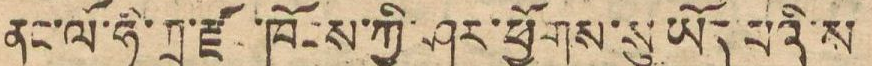ནང་ལོ་ཧི་ཀྲ་ཛོང་ཁོངས་ཀྱི་ཤར་ཕྱོགས་སུ་ཡོད་ཨཔའི་ས
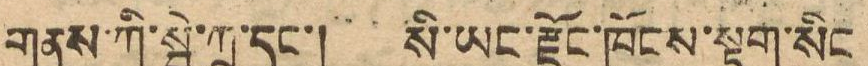གནས་ཀི་སྦེ་ཀྲུ་དང་། སི་ཡང་རྫོང་ཁོངས་སྟག་སིང
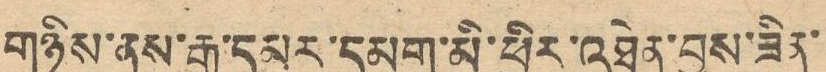གཉིས་ནས་རྒྱ་དམར་དམག་མི་ཕྱིར་འཐེན་བྱས་ཟེན་
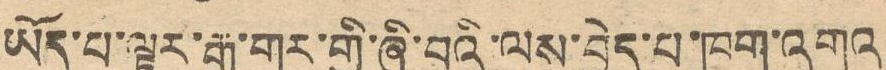ཡོད་པ་ལྟར་རྒྱ་གར་གྱི་ཞི་བའི་ལས་བྱེད་པ་ཁག་འགའ་
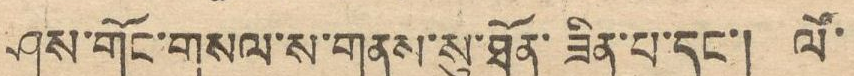ཤས་གོང་གསལ་ས་གནས་སུ་ཐོན་ཟིན་པ་དང་། ལོ་
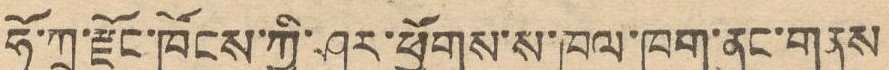ཧོ་ཀྲ་རྫོང་ཁོངས་ཀྱི་ཤར་ཕྱོགས་ས་ཁུལ་ཁག་ནང་གནས
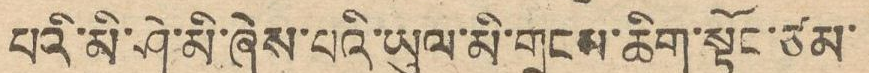པའི་མི་ཤི་མི་ཞེས་པའི་ཡུལ་མི་གྲངས་ཆིག་སྟོང་ཙམ་
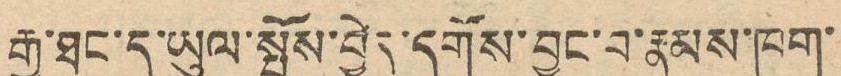རྒྱ་ཐང་དུ་ཡུལ་སྤོས་བྱེད་དགོས་བྱུང་བ་རྣམས་ཁག་
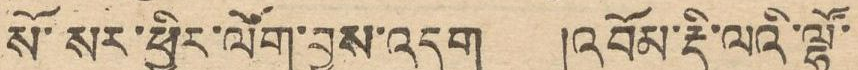སོ་སོར་ཕྱིར་ལོག་བྱས་འདུག །འབོམ་རྡི་ལའི་ལྷོ་
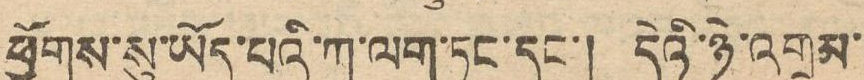ཕྱོགས་སུ་ཡོད་པའི་ཀ་ལག་ཏང་དང་། དེའི་ཉི་འགྲམ་
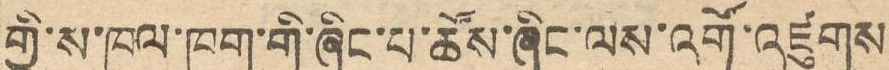གྱི་ས་ཁུལ་ཁག་གི་ཞི་པ་ཚོས་ཞིང་ལས་འགོ་འཛུགས
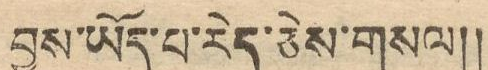བྱས་ཡོད་པ་རེད་ཅེས་གསལ།།
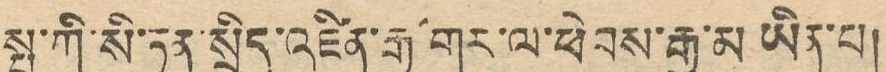སྤ་ཀི་སི་ཏན་སྲིད་རྒྱ་གར་ལ་ཕེབས་རྒྱུ་མ་ཡིན་པ།
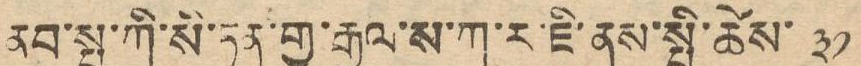ནུབ་སྤ་ཀི་སི་ཏན་གྱི་རྒྱལ་ས་ཀ་ར་ཇི་ནས་སྤྱི་ཚེས་ ༣༡
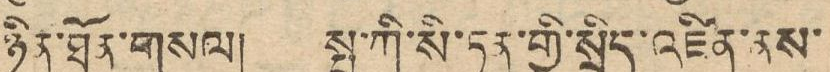ཉིན་ཐོན་གསལ། སྤ་ཀི་སི་ཏན་གྱི་སྲིད་འཛིན་ནས་
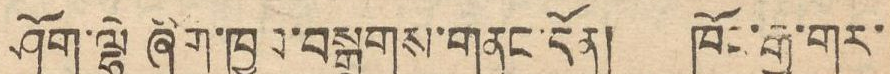ཤོག་ལྟེ ཞིག་ཁྱབ་བསྒྲགས་གནང་དོན། ཁོང་རྒྱ་གར་
